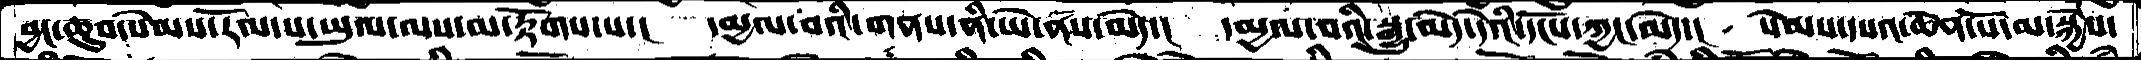བྱང་ཆུབ་སེམས་རོལ་པ་ཡུལ་ལས་མ་རྟོགས་པ་།   དམྱལ་བའི་གནས་ནི་ཡེ་ནས་མེད་།  དམྱལ་བའི་སྒྱུ་མེད་དེའི་དངོས་ཀྱང་མེད་།  སེམས་དཔའ་ཆེན་པོ་མ་སྐྱེས་
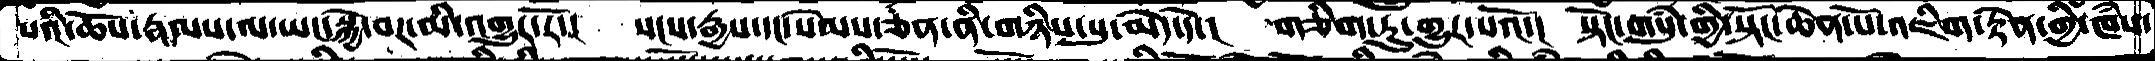པའི་ཆོས་རྣམས་ལ་ཡང་སྐྱེ་བར་མི་འགྱུར་རོ་།   སངས་རྒྱས་དང་སེམས་ཅན་ནི་གཉིས་སུ་མེད་དེ་།  གཅིག་ཏུ་གྱུར་པའོ་།  སྟོང་གསུཾ་གྱི་སྟོང་ཆེན་པོ་འཇིག་རྟེན་གྱི་ཁཾས་
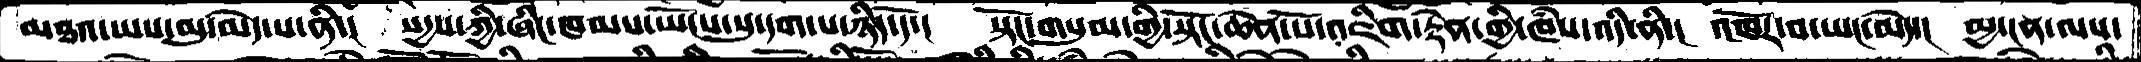མཐའ་ཡས་མུ་མེད་པ་ནི་།   སདྱས་ཀྱི་ཞིང་ཁམས་ཡོངས་སུ་དག་པ་ཉིད་དོ་།    སྟོང་གསུམ་གྱི་སྟོང་ཆེན་པོ་འཇིག་རྟེན་གྱི་ཁཾས་འདི་ནི་།  འཁོར་བ་ཡང་མེད་།  མྱ་ངན་ལས་
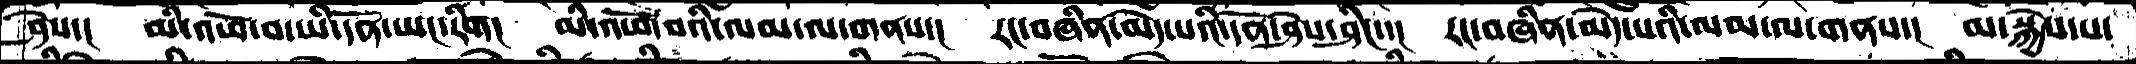ཤེས་།  མི་འཕོ་བ་ཡི་དོན་ཡང་རིག།  མི་འཕོ་བའི་ལམ་ལ་གནས་།  རང་བཞིན་མེད་པའི་དོན་ཤེས་ཤིང་།  རང་བཞིན་མེད་པའི་ལམ་ལ་གནས་།  མ་སྐྱེས་པ་
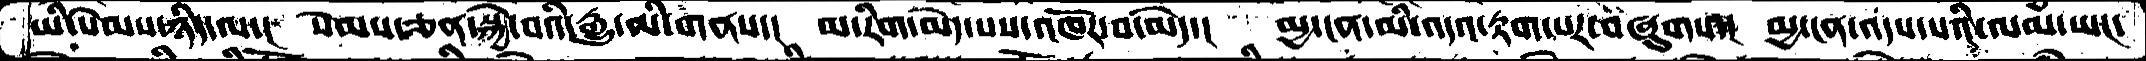ཡི་སེམས་ཉིད་ལ་།  སེམས་ཅན་སྐྱེ་བའི་རྒྱུ་མི་གནས་།  མ་རིག་མེད་པས་འཁོར་བ་མེད་།  མྱ་ངན་མི་འདའ་རྟག་པར་བཞུགས་།  མྱ་ངན་འདས་པའི་ལམ་ཡང་
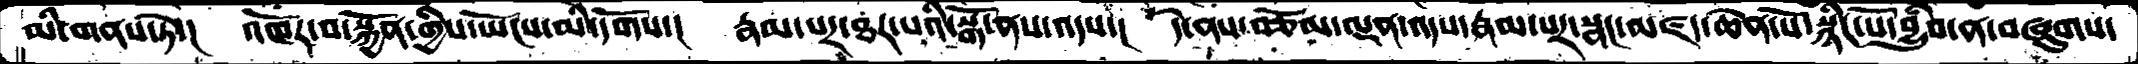མི་གནས་ཏེ་།  འཁོར་བ་སྐྱོན་གྱིས་ཡོངས་མི་དགོས་།  རྣམ་པར་ཐར་པའི་སྒོ་ནས་འདས་།   དེ་ནས་བཅོམ་ལྡན་འདས་རྣམ་པར་སྣང་མཛད་ཆེན་པོ་སྙིང་པོ་བྱུཾབ་ན་བཞུགས་
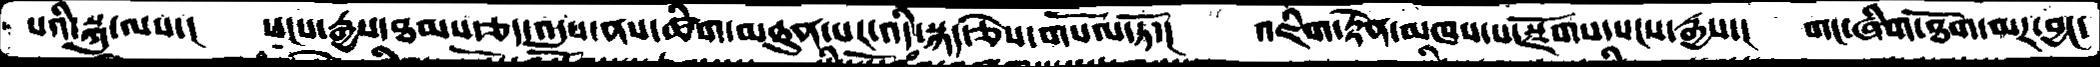པའི་སྐུ་ལས་།  སངས་རྒྱས་ཐམས་ཅད་འདུས་ནས་ཚིག་མཐུན་པར་འདི་སྐད་ཅེས་གསོལ་ཏོ་།  འཇིག་རྟེན་མཁས་པ་སྫོགས་་སངས་རྒྱས་།  གང་ཞིག་ཐོག་མར་བྱང་
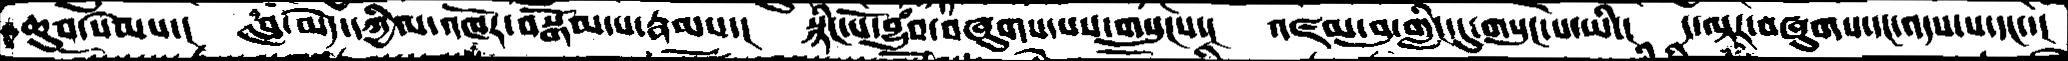ཆུབ་སེམས་།  བླ་མེད་དཀྱིལ་འཁོར་བསྒོམ་པ་རྣམས་།  སྙིང་པོ་བྱུཾབ་བཞུགས་པས་གསུངས་།  འཛམ་བུ་གླིང་དུ་གསུང་པ་ཡི་།  ད་ལྟར་བཞུགས་དང་འདས་པ་དང་་།
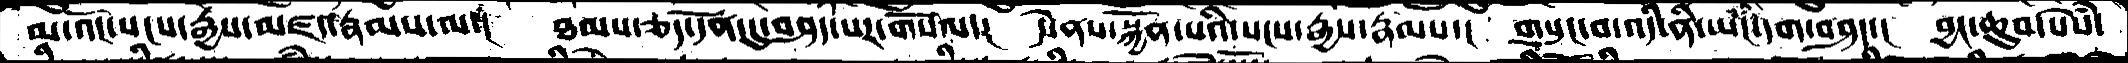མ་འོང་སངས་རྒྱས་མཛད་རྣམས་ལ་།  ཐམས་ཅད་དོན་དུ་བཤད་པར་གསོལ་།  དེ་ནས་སྐྱོན་པའི་སངས་རྒྱས་རྣམས་།  གསུང་བ་འདི་ནི་ཡང་དག་བཤད་།  བྱང་ཆུབ་སེསཾ་
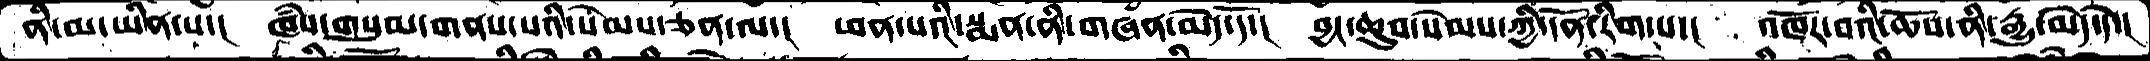ནི་མ་ཡིན་པ་། ཁཾས་གསུམ་གནས་པའི་སེམས་ཅན་ལ་། ཕན་པའི་སྨན་ནི་གཞན་མེད་དོ་། བྱང་ཆུབ་སེམས་ཀྱི་དོན་རིག་པ་། འཁོར་བའི་ཆོས་ནི་རྒྱུ་མེད་དེ་།
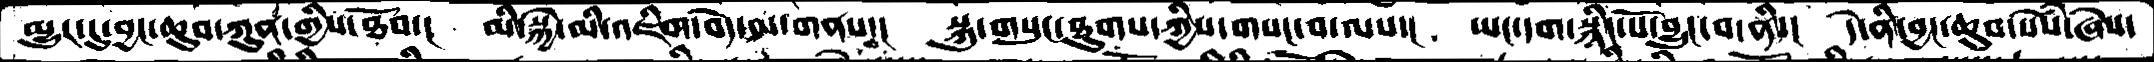མྱུར་དུ་བྱང་ཆུབ་ཀུན་གྱིས་ཐོབ་།  མི་སྐྱེ་མི་འཇིག་བདེ་ལ་གནས་།  སྐུ་གསུང་ཐུགས་ཀྱིས་གསང་བ་ལས་།  ཡང་དག་སྙིང་པོ་བྱུང་བ་ནི་།  དེ་ནི་བྱང་ཆུབ་སེཾས་ཞེས་
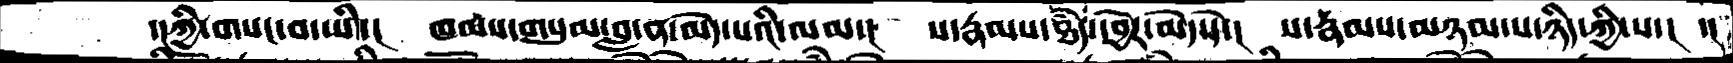་།ཀྱི་གསང་བ་ཡི་།   ཁམས་གསུམ་བླ་ན་མེད་པའི་ལམ་།  ས་རྣམས་ཐཾད་དབྱེར་མེད་དེ་།  ས་རྣམས་མཉམ་པ་ཉིད་ཀྱི་ས་།   ་།
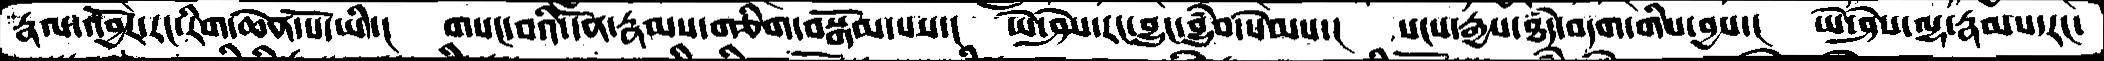རྣལ་འབྱོར་རང་རིག་ཆེན་པོ་ཡི་།  གསང་བའི་དོན་རྣམས་གཅིག་བསྒོམ་པས་།  ཡེ་ཤེས་རང་བྱུང་བྱུཾབ་སེམས་།  སངས་རྒྱས་ཐཾད་བདག་གིས་བྱས་།  ཡེ་ཤེས་ལྷ་རྣམས་རང་
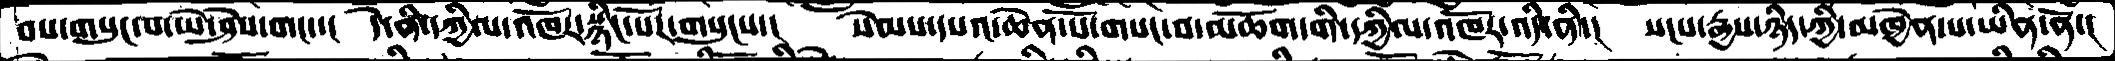བས་གསུང་པ་ཡེ་ཤེས་གང་་།   དེ་ནི་དཀྱིལ་འཁོར་སྙིང་པོར་གསུངས་།  སེམས་དཔའ་ཆེན་པོ་གསང་བ་མཆོག་གི་དཀྱིལ་འཁོར་འདི་ནི་།  སངས་རྒྱས་ཉིད་ཀྱི་མཁྱེན་པ་ཡིན་ནོ་།
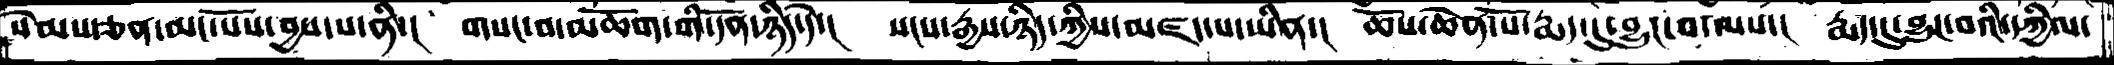སེམས་ཅན་མང་པོས་བྱས་པ་ནི་།  གསང་བ་མཆོག་གི་དོན་ཉིད་དེ་།  སངས་རྒྱས་ཉིད་ཀྱིས་མཛད་པ་ཡིན་།  ཆོས་ཆེན་པོ་རྨད་དུ་བྱུང་བ་ལས་།  རྨད་དུ་བྱུང་བའི་དཀྱིལ་
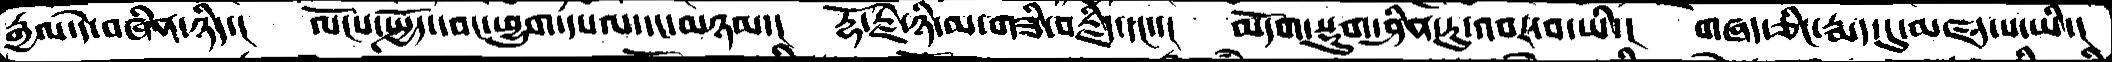རྒྱལ་དེ་བཞིན་ཉིད་།  ལོངས་སྤྱོད་དབང་ཕྱུག་དཔལ་དང་མཉམ་།  རྡོ་རྗེ་ཉི་མ་གཟི་བརྗིད་དང་་།  མདོག་སྡུག་ཤིན་ཏུ་འབར་བ་ཡི་།  གཞད་ཅིང་རྨད་དུ་མཛད་པ་ཡི་།
